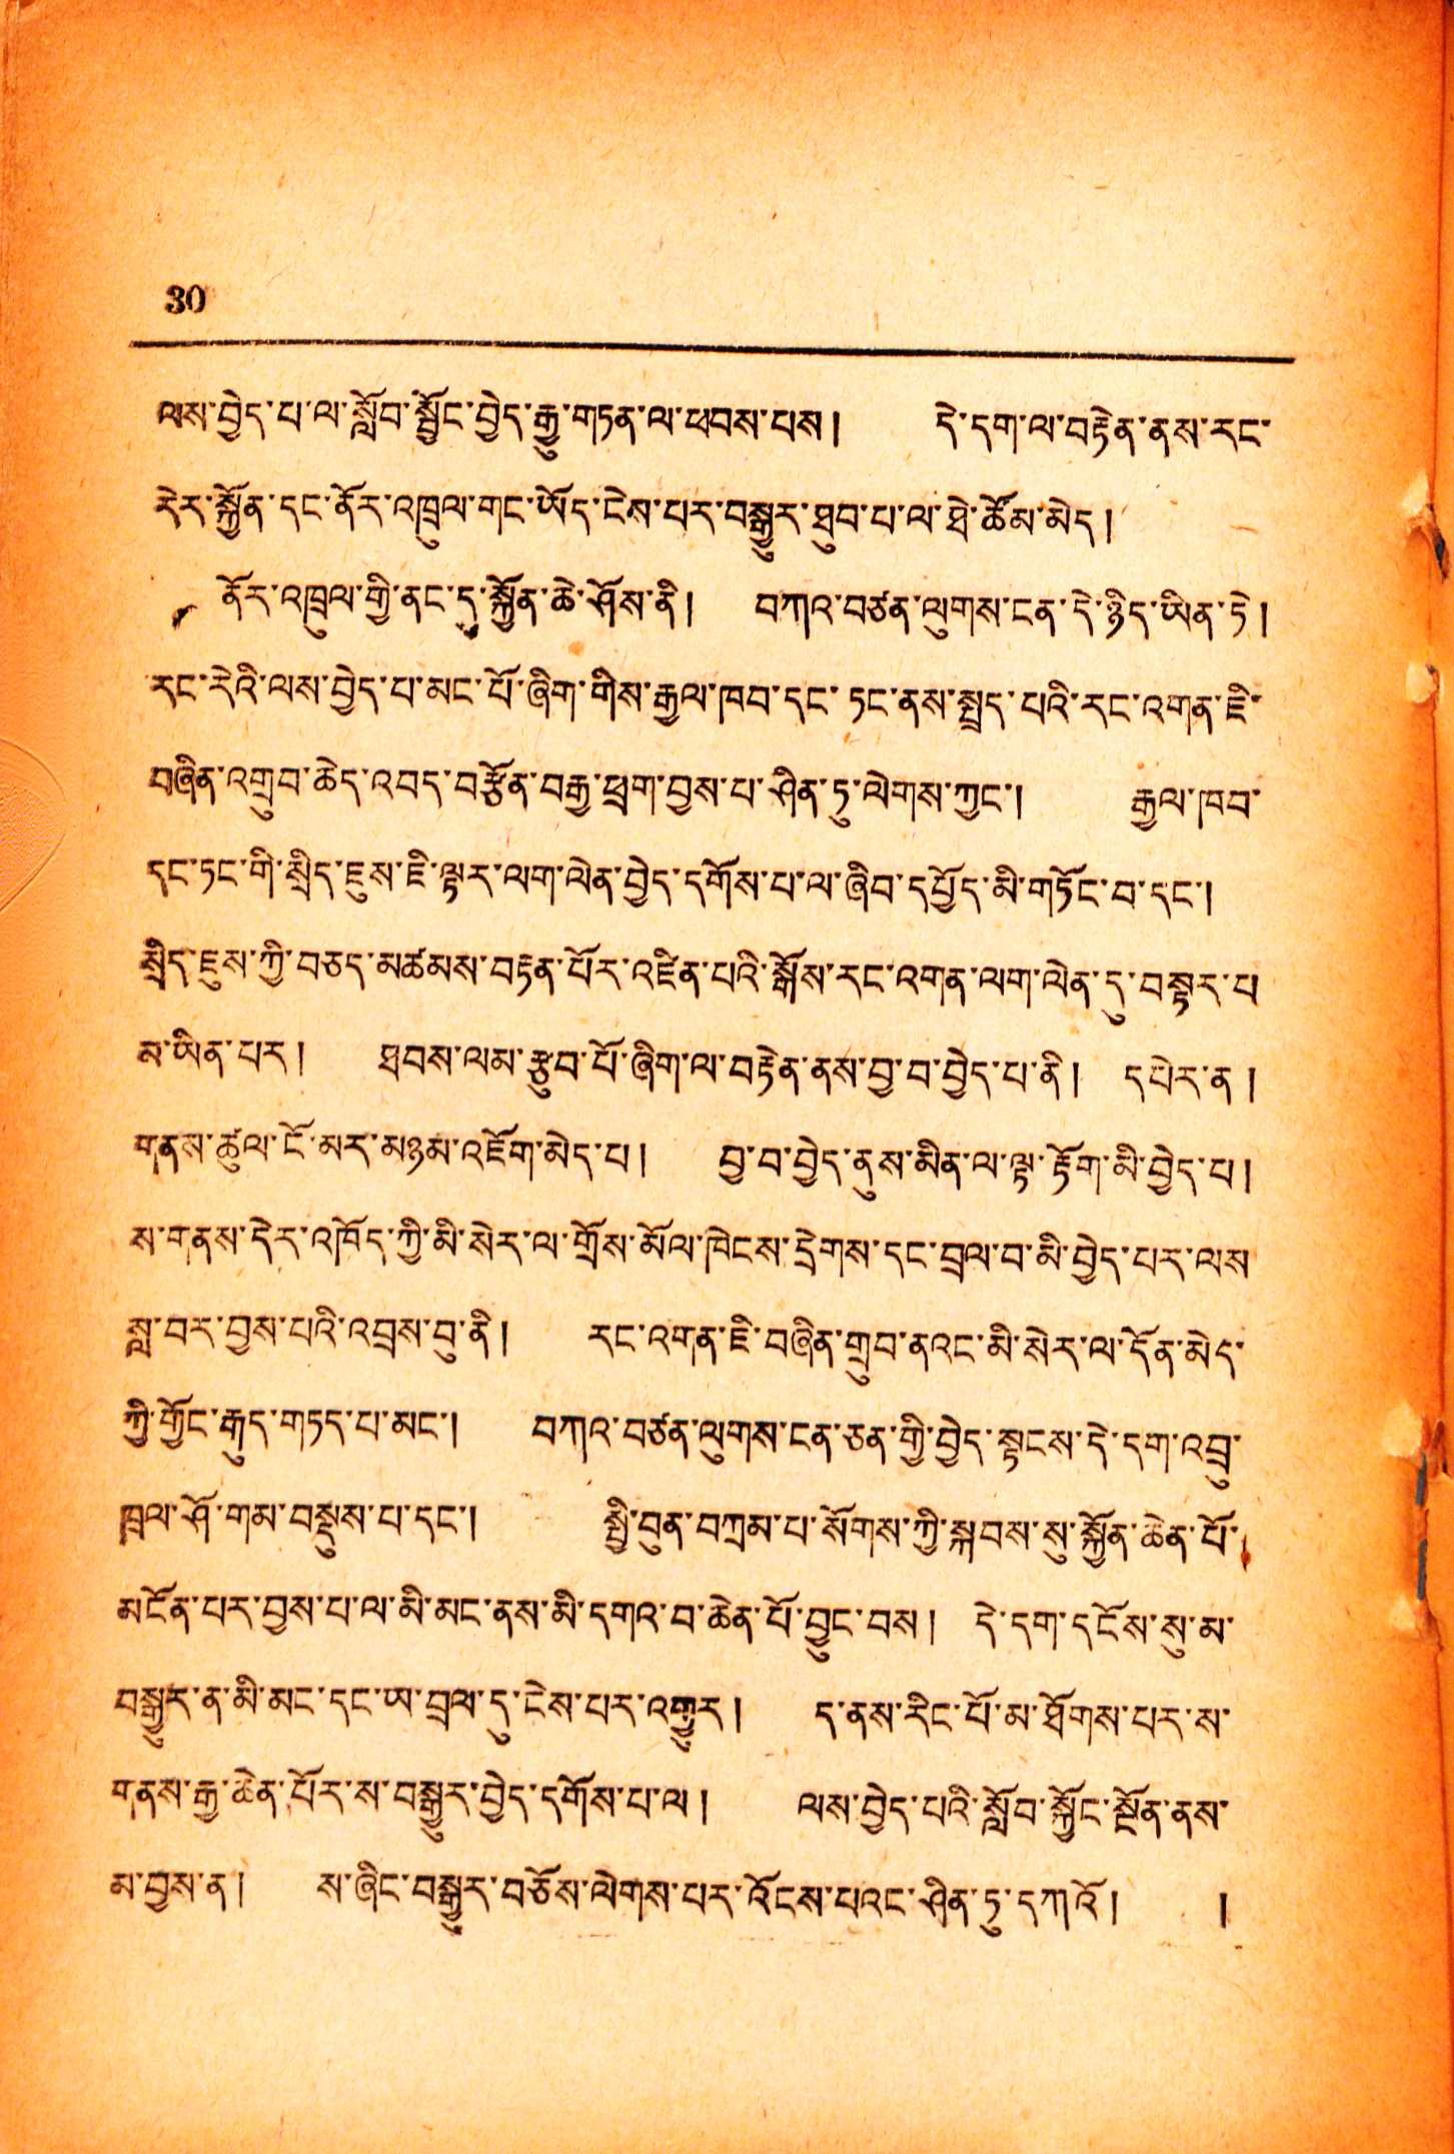30
ལས་བྱེད་པ་ལ་སློབ་སྦྱོང་བྱེད་རྒྱུ་གཏན་ལ་ཕབས་བས། དེ་དག་ལ་བརྟེན་ནས་རང་
རེར་སྐྱོན་དང་ནོར་འཁྲུལ་གང་ཡོད་ངེས་པར་བསྒྱུར་ཐུབ་པ་ལ་ཐེ་ཚོམ་མེད།
ནོར་འཁྲུལ་གྱི་ན་ངདུ་སྐྱོན་ཆེ་ཤོས་ནི། བཀའ་བཙན་ལུགས་ངན་དེ་ཉིད་ཡིན་ཏེ།
རང་རེའི་ལས་བྱེད་པ་མང་པོ་ཞིག་གིས་རྒྱལ་ཁབ་དང་ཏང་ནས་སྤྲད་པའི་རང་འགན་ཇི་
བཞིན་འགྲུབ་ཆེད་འབད་བརྩོན་བརྒྱ་ཕྲག་བྱས་པ་ཤིན་ཏུ་ལེགས་ཀྱང་། རྒྱལ་ཁབ་
དང་ཏང་གི་སྲིད་ཇུས་ཇི་ལྟར་ལག་ལེན་བྱེད་དགོས་པ་ལ་ཞིབ་དཔྱོད་མི་གཏོང་བ་དང་།
སྲིད་ཇུས་ཀྱི་བཅད་མཚམས་བརྟན་པོར་འཛིན་པའི་སྒོས་རང་འགན་ལག་ལེན་དུ་བསྟར་པ
མ་ཡིན་པར། ཐགས་ལམ་རྩུབ་པོ་ཞིག་ལ་བརྟེན་ནས་བྱ་བ་བྱེད་པ་ནི། དཔེར་ན།
གནས་ཚུལ་ངོ་མར་ཡཉམ་འཇོག་མེད་པ། བྱ་བ་བྱེད་ནུས་མིན་ལ་ལྟ་རྟོག་མི་བྱེད་པ།
ས་གནས་དེར་འཁོད་ཀྱི་མི་སེར་ལ་གྲོས་མོལ་ཁེངས་དྲེགས་དང་བྲལ་བ་མི་བྱེད་པར་ལས་
བླ་བར་བྱས་པའི་འབྲས་བུ་ནི། རང་འགན་ཇི་བཞིན་གྲུབ་ནའང་མི་སེར་ལ་དོན་མེད་
ཀྱི་གྱོང་རྒུད་གཏད་པ་མང་། བཀའ་བཙན་ལུགས་ངན་ཅན་གྱི་བྱེད་སྟངས་དེ་དག་འབྲུ་
ཁྲལ་ཤོ་གམ་བསྡུས་པ་དང་། སྤྱི་བུན་བཀྲམ་པ་སོགས་ཀྱི་སྐབས་སུ་སྐྱོན་ཆེན་པོ་
མངོན་པར་བྱས་བ་ལ་མི་མང་ནས་མི་དགའ་བ་ཆེན་པོ་བྱུང་བས། དེ་དག་དངོས་སུ་མ་
བསྒྱུར་ན་མི་མང་དང་ཡ་བྲལ་དུ་ངེས་པར་འགྱུར། ད་ནས་རིང་པོ་མ་ཐོགས་པར་ས་
གནས་རྒྱ་ཆེན་པོར་ས་བསྒྱུར་བྱེད་དགོས་པ་ལ། ལས་བྱེད་པའི་སློབ་སྐྱོང་སྔོན་ནས་
མ་བྱས་ན། ས་ཞིང་བསྒྱུར་བཅོས་ལེགས་པར་འོངས་པའང་ཤིན་ཏུ་དཀའོ། །
